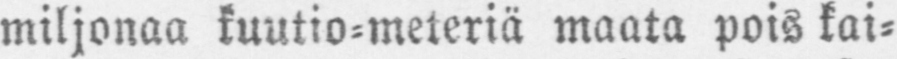miljonaa kuutio-meteriä maata pois kai-
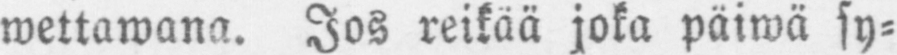wettawana. Jos reikää joka päiwä sy-
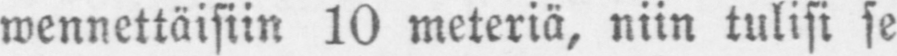wennettäisiin 10 meteriä, niin tulisi se
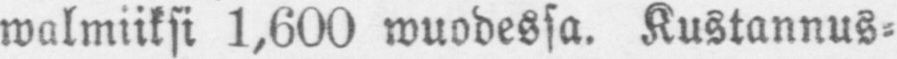walmiiksi 1,600 wuodessa. Kustannus-
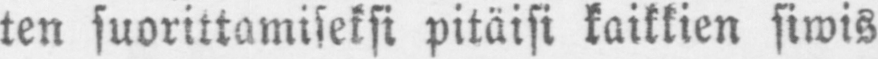ten suorittamiseksi pitäisi kaikkien siwis
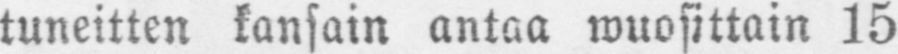tuneitten kansain antaa wuosittain 15
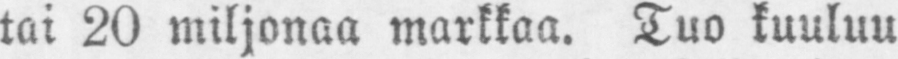tai 20 miljonaa markkaa. Tuo kuuluu
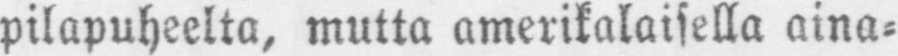pilapuheelta, mutta amerikalaisella aina-
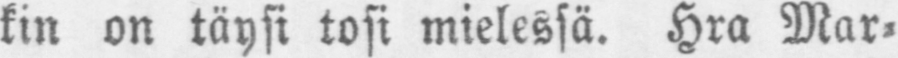kin on täysi tosi mielessä. Hra Mar-
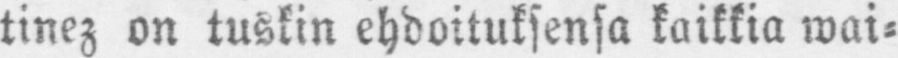tinez on tuskin ehdotuksensa kaikkia wai-
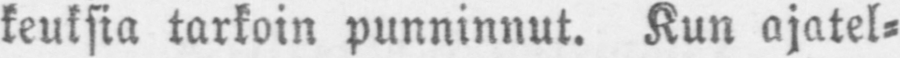keuksia tarkoin punninnut. Kun ajatel-
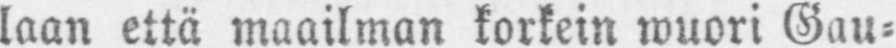laan että maailman korkein wuori Gau-
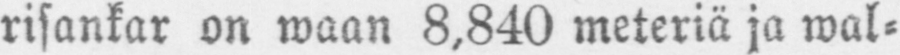risankar on waan 8,840 meteriä ja wal-
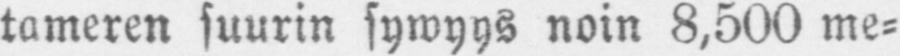tameren suurin sywyys noin 8,500 me-
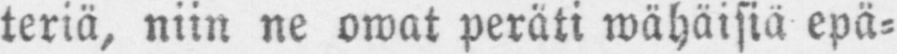teriä, niin ne owat peräti vähäisiä epä-
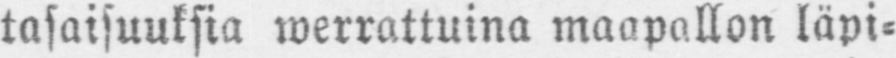tasaisuuksia werrattuina maapallon läpi-
